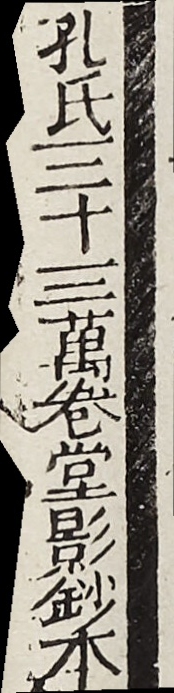孔氏三十三萬卷堂影鈔本
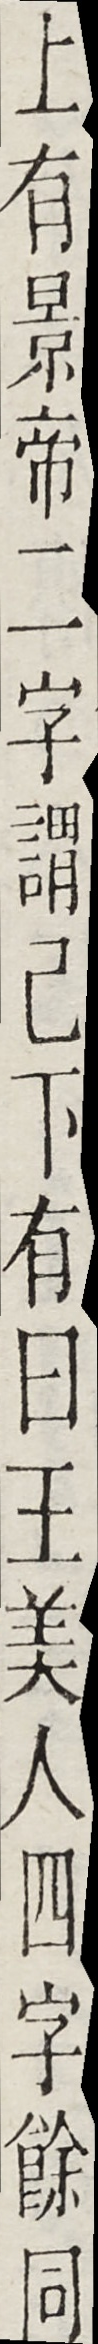欽定圖書集成歲功典六十七引漢武故事夢
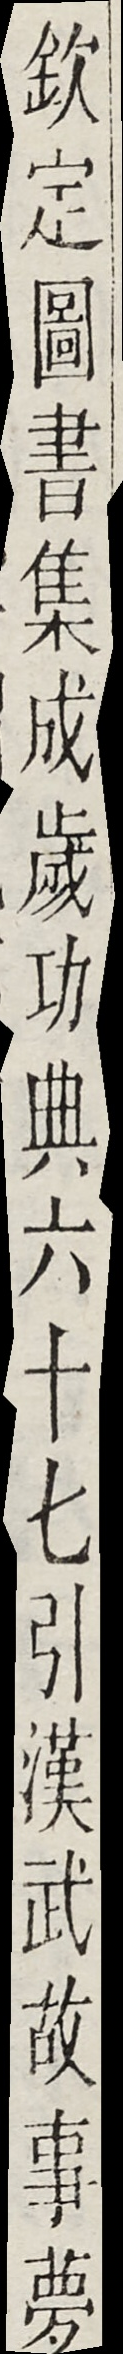上有景帝二字謂己下有曰王美人四字餘同
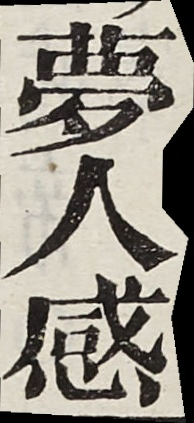夢人感
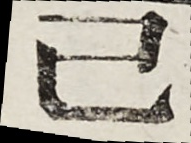己
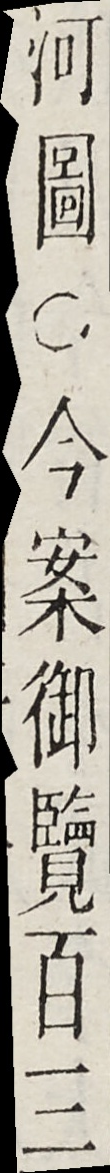河圖○今案御覽百三
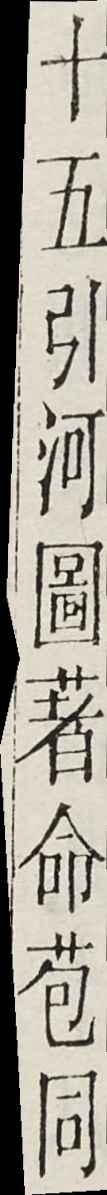十五引河圖著命苞同
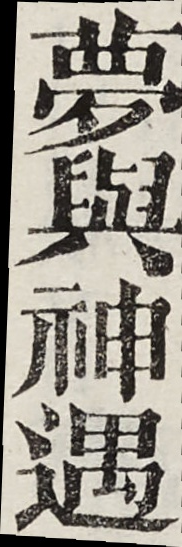夢與神遇
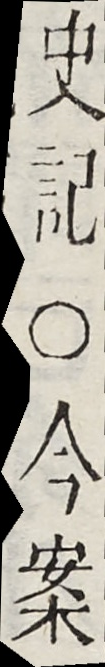史記○今案
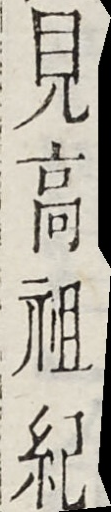見高祖紀
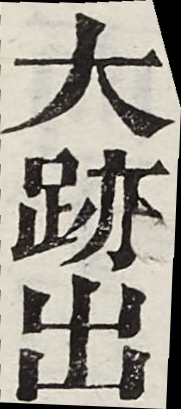大跡出
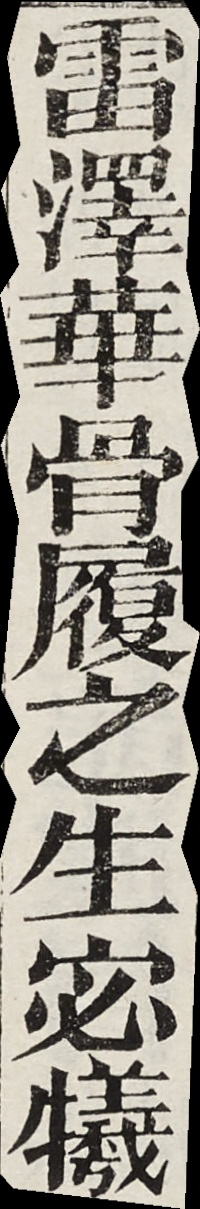雷澤華骨履之生宓犧
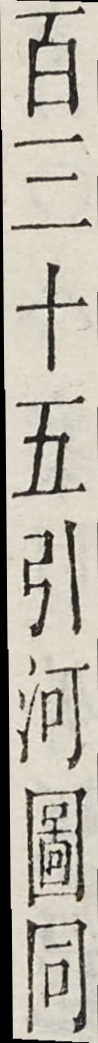百三十五引河圖同
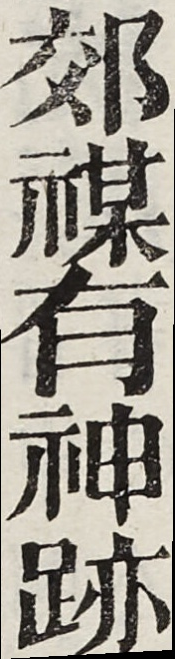郊禖有神跡
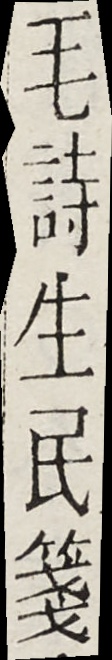毛詩生民箋
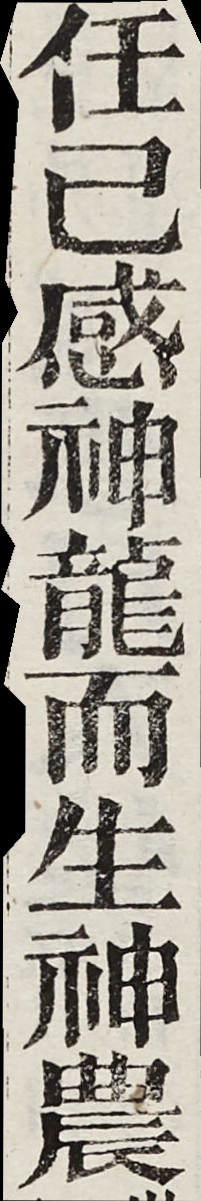任己感神龍而生神農
